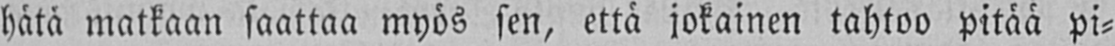hätä matkaan saattaa myös sen, että jokainen tahtoo pitää pi-
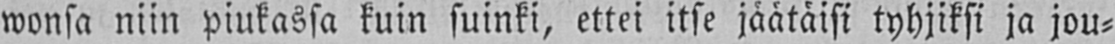wonsa niin piukassa kuin suinki, ettei itse jäätäisi tyhjiksi ja jou-
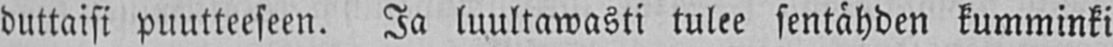duttaisi puutteeseen. Ja luultawasti tulee sentähden kumminki
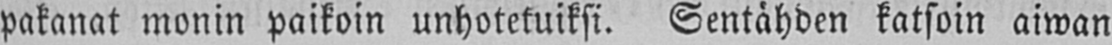pakanat monin paikoin unhotetuiksi. Sentähden katsoin aiwan
